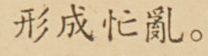形成忙亂。
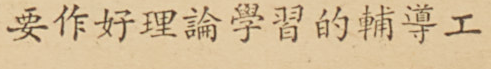要作好理論學習的輔導工
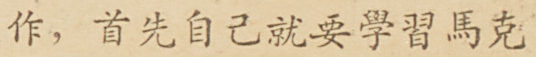作，首先自己就要學習馬克
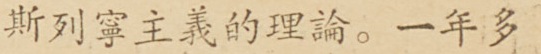思列寧主義的理論。一年多
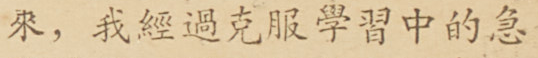來，我經過克服學習中的急
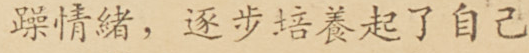躁情緒，逐步培養起了自己
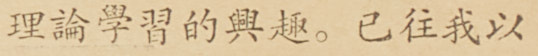理論學習的興趣。已往我以
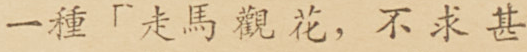一種「走馬觀花，不求甚
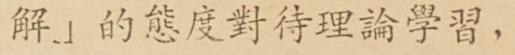解」的態度對待理論學習，
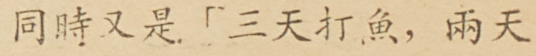同時又是「三天打魚，兩天
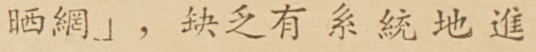晒網」，缺乏有系統地進
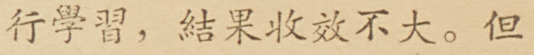行學習，結果收效不大。但
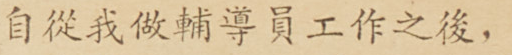自從我做輔導員工作之後，
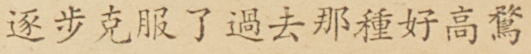逐步克服了過去那種好高鶩
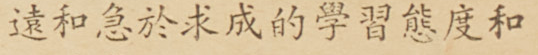遠和急於求成的學習態度和
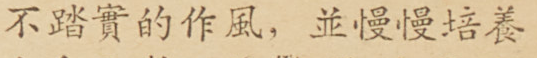不踏實的作風，並慢慢培養
